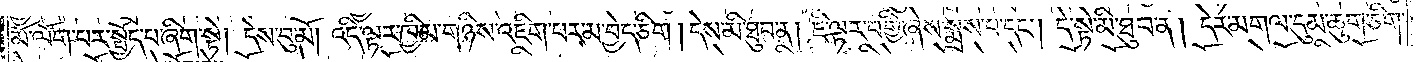མོ་ལོག་པར་སྤྱོད་པ་ཞིག་སྟེ། དེས་བུ་མོ། འདི་ལྟར་ཁྱིམ་གཉིས་འཇིག་པར་མ་བྱེད་ཅིག །དེས་མི་ཐུབ་ན། ཇི་ལྟར་བགྱི་ཞེས་སྨྲས་པ་དང༌། དེ་སྟེ་མི་ཐུབ་ན། དེར་མགལ་དུམ་ཆུག་ཅིག་
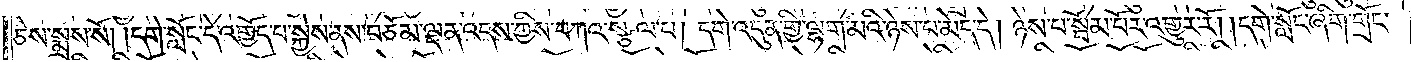ཅེས་སྨྲས་སོ། །དགེ་སློང་དེ་འགྱོད་པ་སྐྱེས་ནས་བཅོམ་ལྡན་འདས་ཀྱིས་བཀའ་སྩལ་པ། དགེ་འདུན་གྱི་ལྷག་མའི་ཉེས་པ་མེད་དེ། ཉེས་པ་སྦོམ་པོར་འགྱུར་རོ། །དགེ་སློང་ཞིག་གྲོང་
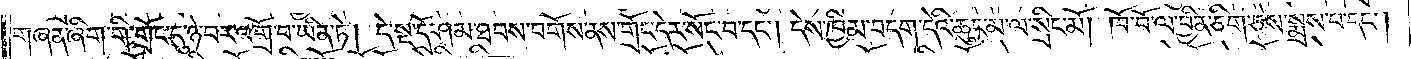གཞན་ཞིག་གི་གྲོང་དུ་ཉེ་བར་འགྲོ་བ་ཡིན་ཏེ། དེ་སྔ་དྲོ་ཤམ་ཐབས་བགོས་ནས་གྲོང་དེར་སོང་བ་དང༌། དེས་ཁྱིམ་བདག་དེའི་ཆུང་མ་ལ་སྲིང་མོ། ཁོ་བོ་ལ་བྱིན་ཅིག་ཅེས་སྨྲས་པ་དང༌།
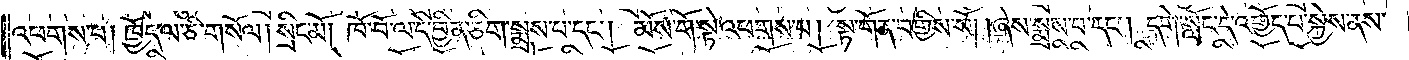འཕགས་པ། ཁྱོད་ལ་ཅི་གསོལ། སྲིང་མོ། ཁོ་བོ་ལ་དེ་བྱིན་ཅིག་སྨྲས་པ་དང༌། མོས་གོ་སྟེ་འཕགས་པ། སྟ་གོན་བགྱིས་སོ། །ཞེས་སྨྲས་པ་དང༌། དགེ་སློང་དེ་འགྱོད་པ་སྐྱེས་ནས་
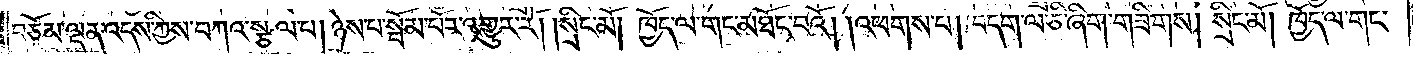བཅོམ་ལྡན་འདས་ཀྱིས་བཀའ་སྩལ་པ། ཉེས་པ་སྦོམ་པོར་འགྱུར་རོ། །སྲིང་མོ། ཁྱོད་ལ་གང་མཐོང་བའོ། །འཕགས་པ། བདག་ལ་ཅི་ཞིག་གཟིགས། སྲིང་མོ། ཁྱོད་ལ་གང་
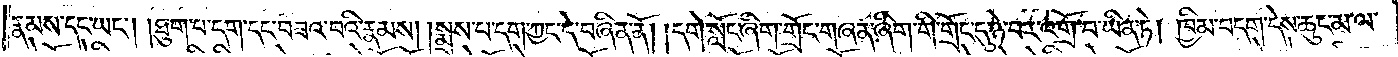རྣམས་དང་ཡང༌། །ཐུག་པ་དག་དང་བཟའ་བའི་རྣམས། །སྨྲས་པ་དག་ཀྱང་དེ་བཞིན་ནོ། །དགེ་སློང་ཞིག་གྲོང་གཞན་ཞིག་གི་གྲོང་དུ་ཉེ་བར་འགྲོ་བ་ཡིན་ཏེ། ཁྱིམ་བདག་དེས་ཆུང་མ་ལ་
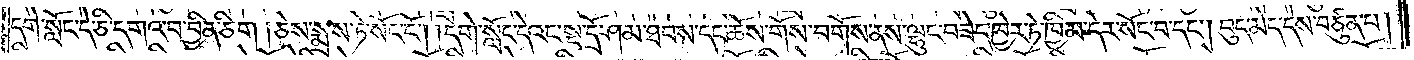དགེ་སློང་དེ་ཅི་དགའ་བ་བྱིན་ཅིག །ཅེས་སྨྲས་ཏེ་སོང་ངོ༌། །དགེ་སློང་དེའང་སྔ་དྲོ་ཤམ་ཐབས་དང་ཆོས་གོས་བགོས་ནས་ལྷུང་བཟེད་ཁྱེར་ཏེ་ཁྱིམ་དེར་སོང་བ་དང༌། བུད་མེད་དེས་བཙུན་པ།
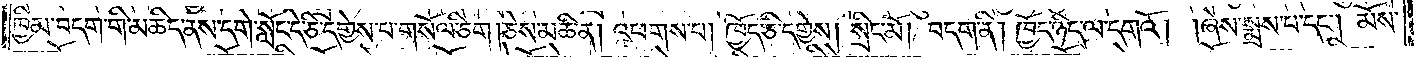ཁྱིམ་བདག་གི་མཆིད་ནས་དགེ་སློང་དེ་ཅི་དགྱེས་པ་གསོལ་ཅིག །ཅེས་མཆི་ན། འཕགས་པ། ཁྱོད་ཅི་དགྱེས། སྲིང་མོ། བདག་ནི། ཁྱོད་ཉིད་ལ་དགའོ། །ཞེས་སྨྲས་པ་དང༌། མོས་
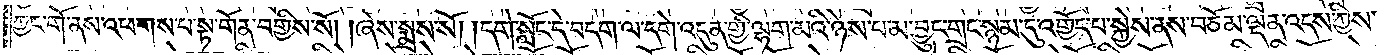ཀྱང་གོ་ནས་འཕགས་པ་སྟ་གོན་བགྱིས་སོ། །ཞེས་སྨྲས་སོ། །དགེ་སློང་དེ་བདག་ལ་དགེ་འདུན་གྱི་ལྷག་མའི་ཉེས་པ་མ་བྱུང་གྲང་སྙམ་དུ་འགྱོད་པ་སྐྱེས་ནས་བཅོམ་ལྡན་འདས་ཀྱིས་
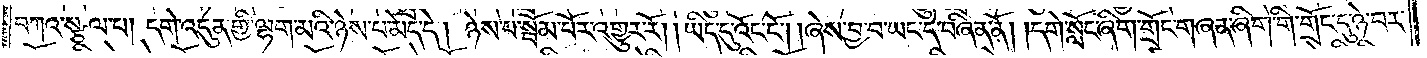བཀའ་སྩལ་པ། དགེ་འདུན་གྱི་ལྷག་མའི་ཉེས་པ་མེད་དེ། ཉེས་པ་སྦོམ་པོར་འགྱུར་རོ། །ཡིད་དུ་འོང་ངོ༌། ཞེས་བྱ་བ་ཡང་དེ་བཞིན་ནོ། །དགེ་སློང་ཞིག་གྲོང་གཞན་ཞིག་གི་གྲོང་དུ་ཉེ་བར་
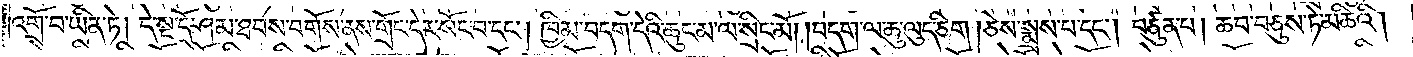འགྲོ་བ་ཡིན་ཏེ། དེ་སྔ་དྲོ་ཤམ་ཐབས་བགོས་ནས་གྲོང་དེར་སོང་བ་དང༌། ཁྱིམ་བདག་དེའི་ཆུང་མ་ལ་སྲིང་མོ། །བདག་ལ་ཆུ་ལུད་ཅིག །ཅེས་སྨྲས་པ་དང༌། བཙུན་པ། ཆབ་བཅུས་ཏེ་མཆིའི།
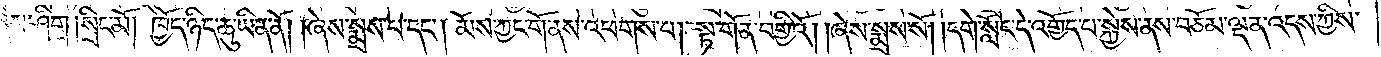གཞེས་ཤིག །སྲིང་མོ། ཁྱོད་ཉིད་ཆུ་ཡིན་ནོ། །ཞེས་སྨྲས་པ་དང༌། མོས་ཀྱང་གོ་ནས་འཕགས་པ། སྟ་གོན་བགྱིའོ། །ཞེས་སྨྲས་སོ། །དགེ་སློང་དེ་འགྱོད་པ་སྐྱེས་ནས་བཅོམ་ལྡན་འདས་ཀྱིས་
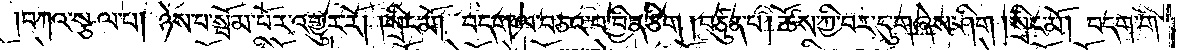བཀའ་སྩལ་པ། ཉེས་པ་སྦོམ་པོར་འགྱུར་རོ། །སྲིང་མོ། བདག་ལ་བཅའ་བ་བྱིན་ཅིག །བཙུན་པ། ཚོས་ཀྱི་བར་དུ་གཞེས་ཤིག །སྲིང་མོ། བདག་གི་
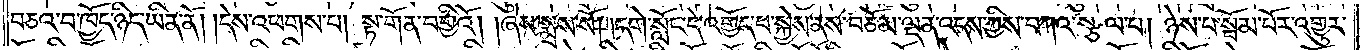བཅའ་བ་ཁྱོད་ཉིད་ཡིན་ནོ། །དེས་འཕགས་པ། སྟ་གོན་བགྱིའོ། །ཞེས་སྨྲས་སོ། །དགེ་སློང་དེ་འགྱོད་པ་སྐྱེས་ནས་བཅོམ་ལྡན་འདས་ཀྱིས་བཀའ་སྩལ་པ། ཉེས་པ་སྦོམ་པོར་འགྱུར་
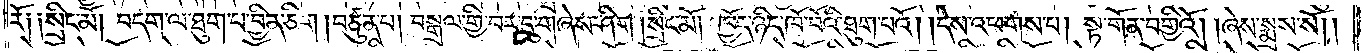རོ༑ ༑སྲིང་མོ། བདག་ལ་ཐུག་པ་བྱིན་ཅིག །བཙུན་པ། བསྒྲལ་གྱི་བར་དུ་གཞེས་ཤིག །སྲིང་མོ། ཁྱོད་ཉིད་ཁོ་བོའི་ཐུག་པའོ། །དེས་འཕགས་པ། སྟ་གོན་བགྱིའོ། །ཞེས་སྨྲས་སོ། །
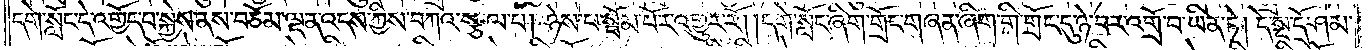དགེ་སློང་དེ་འགྱོད་པ་སྐྱེས་ནས་བཅོམ་ལྡན་འདས་ཀྱིས་བཀའ་སྩལ་པ། ཉེས་པ་སྦོམ་པོར་འགྱུར་རོ། །དགེ་སློང་ཞིག་གྲོང་གཞན་ཞིག་གི་གྲོང་དུ་ཉེ་བར་འགྲོ་བ་ཡིན་ཏེ། དེ་སྔ་དྲོ་ཤམ་
